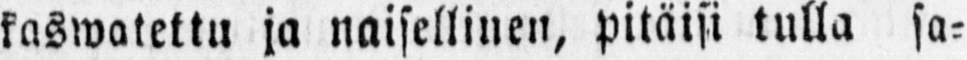kaswatettu ja naisellinen, pitäisi tulla sa-
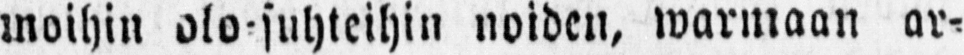moihin olo-suhteihin noiden, warmaan ar-
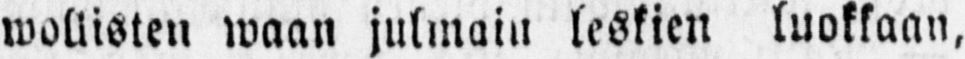wollisten waan julmain leskien luokkaan,
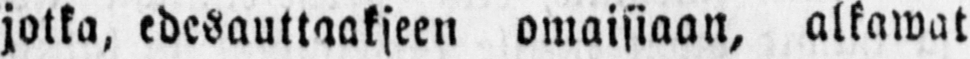jotka, edesauttaakseen omaisiaan, alkawat
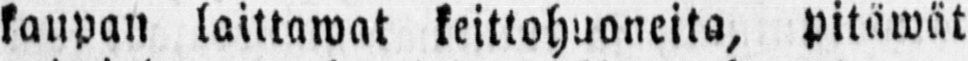kaupan laittawat keittohuoneita, pitäwät
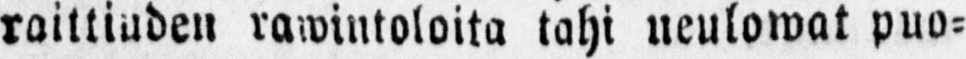raittiuden rawintoloita tahi neulowat puo-
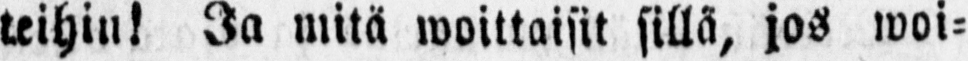teihin! Ja mitä woittaisit sillä, jos woi-
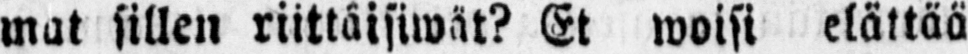mat sillen riittäisiwät? Et woisi elättää
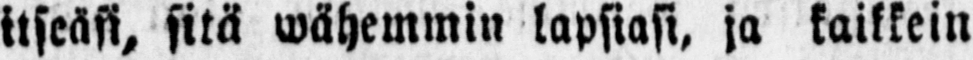itseäsi, sitä wähemmin lapsiasi, ja kaikkein
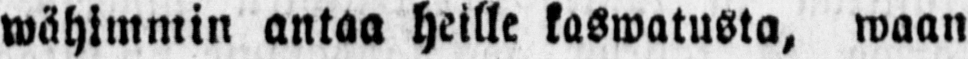wähimmin antaa heille kaswatusta, waan
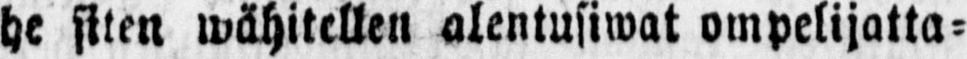he siten wähitellen alentusiwat ompelijatta-
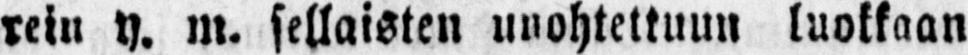kin y. m. sellaisten unohtettuun luokkaan
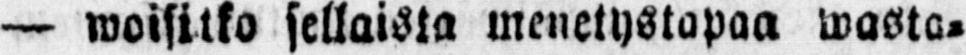— woisitko sellaista menetystapaa wasta-
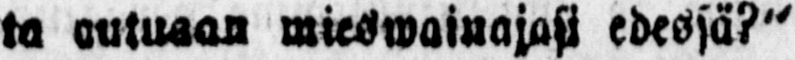ta autuaan mieswainajasi edessä?"
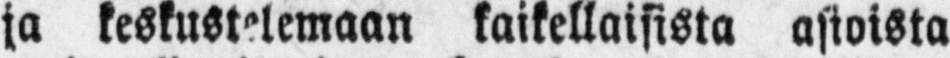ja keskustelemaan kaikellaisista asioista
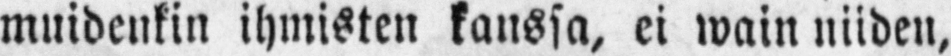muidenkin ihmisten kanssa, ei wain niiden,
